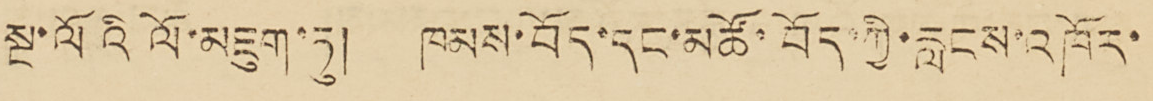སྔ་ལོའི ལོ་མཇུག་ཏུ། ཁམས་བོད་དང་མཚོ་བོད་ཀྱི་རླངས་འཁོར་
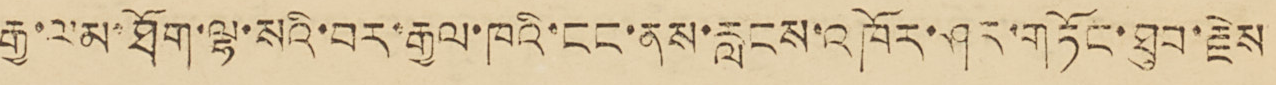རྒྱ་ལམ་ཐོག་ལྷ་སའི་བར་རྒྱལ་ཁའི་ངང་ནས་རླངས་འཁོར་ཤར་གཏོང་ཐུབ་རྗེས
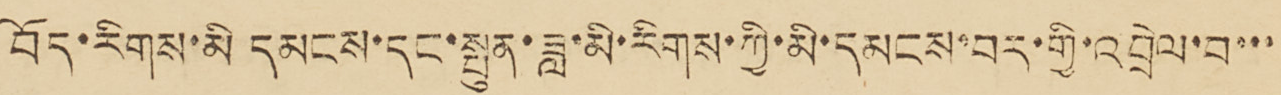བོད་རིགས་མི དམངས་དང་སྤུན་ཟླ་མི་རིགས་ཀྱི་མི་དམངས་བར་གྱི་འབྲེལ་བ་་་
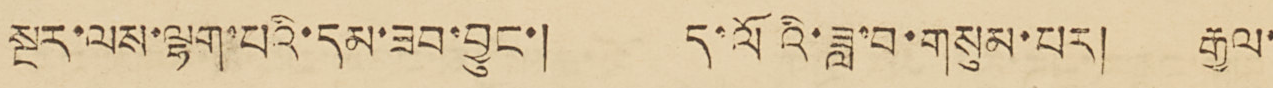སྔར་ལས་ལྷག་པའི་དམ་ཟབ་བྱུང་། ད་ལོའི་ཟླ་བ་གསུམ་པར། རྒྱལ་
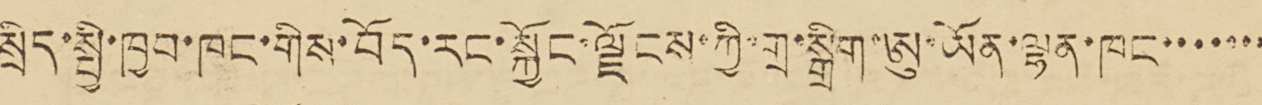སྲིད་སྤྱི་ཁྱབ་ཁང་གིས་བོད་རང་སྐྱོང་ལྗོངས་ཀྱི་གྲ་སྒྲིག་ཨུ་ཡོན་ལྷན་ཁང་་་་་་་
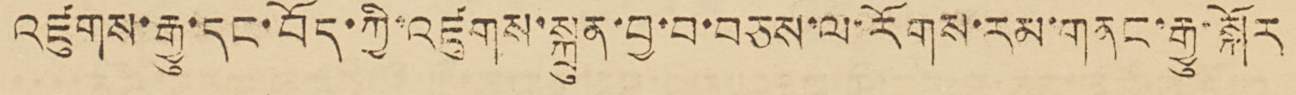འཛུགས་རྒྱུ་དང་བོད་ཀྱི་འཛུགས་སྐྲུན་བྱ་བ་བཅས་ལ་རོགས་རམ་གནང་རྒྱུ་སྐོར
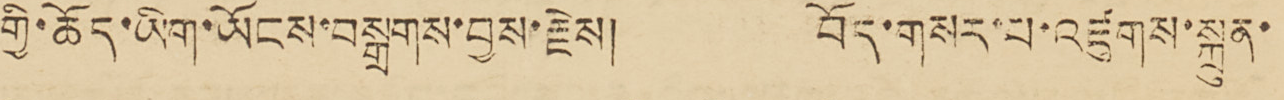གྱི་ཆོད་ཡིག་ཡོངས་བསྒྲགས་བྱས་རྗེས། བོད་གསར་པ་འཛུགས་སྐྲུན་
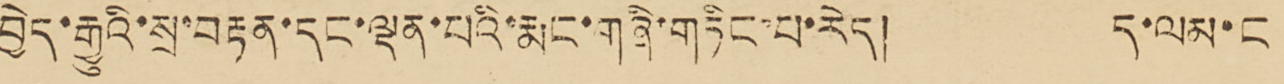བྱེད་རྒྱུའི་སྲ་བརྟན་དང་ལྡན་པའི་རྨང་གཞི་གཏིང་པ་རེད། ད་ལམ་ང
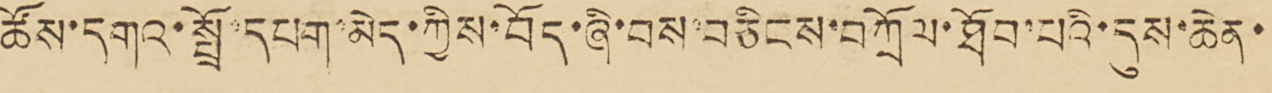ཚོས་དགའ་སྤྲོ་དཔག་མེད་ཀྱིས་བོད་ཞི་བས་བཅིངས་བཀྲོལ་ཐོབ་པའི་དུས་ཆེན་
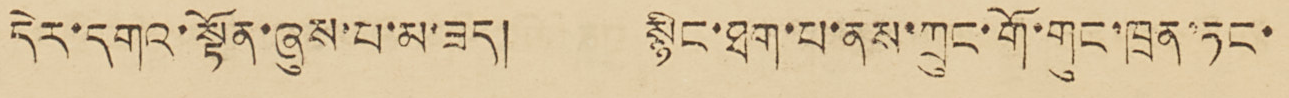དེར་དགའ་སྟོན་ཞུས་པ་མ་ཟད། སྙིང་ཐག་པ་ནས་ཀྲུང་གོ་གུང་ཁྲན་ཏང་
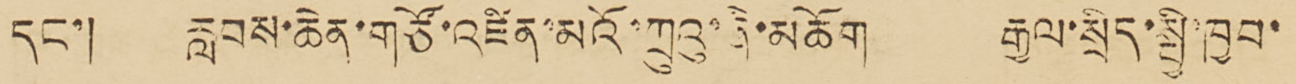དང་། རླབས་ཆེན་གཙོ་འཛིན་མའོ་ཀྲུའུ་ཞི་མཆོག རྒྱལ་སྲིད་སྤྱི་ཁྱབ་
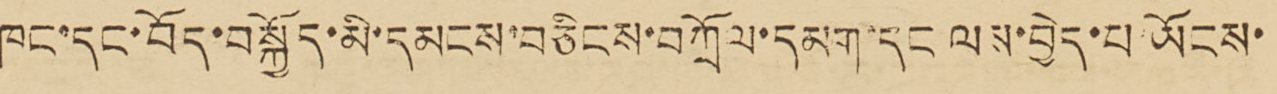ཁང་དང་བོད་བསྐྱོད་མི་དམངས་བཅིངས་བཀྲོལ་དམག་དང ལས་བྱེད་པ ཡོངས་
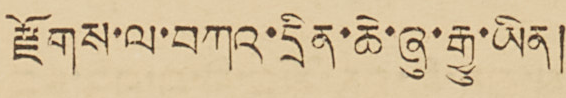རྫོགས་ལ་བཀའ་དྲིན་ཆེ་ཞུ་རྒྱུ་ཡིན།
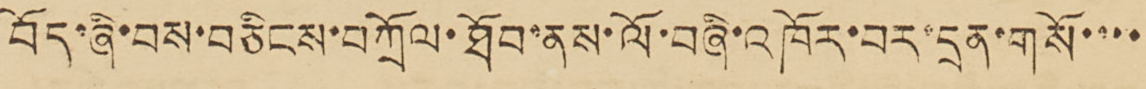བོད་ཞི་བས་བཅིངས་བཀྲོལ་ཐོབ་ནས་ལོ་བཞི་འཁོར་བར་དྲན་གསོ་་་་
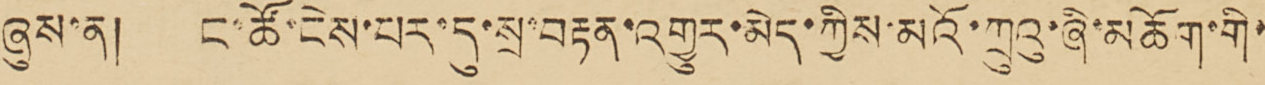ཞུས་ན། ང་ཚོ་ངེས་པར་དུ་སྲ་བརྟན་འགྱུར་མེད་ཀྱིས་མའོ་ཀྲུའུ་ཞི་མཆོག་གི་
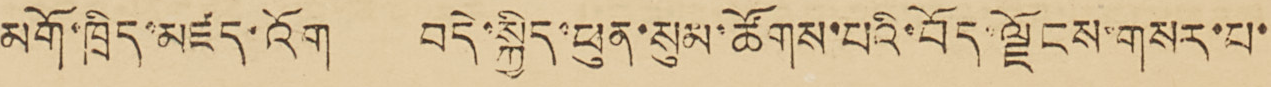མགོ་ཁྲིད་མཛད་འོག བདེ་སྐྱིད་ཕུན་སུམ་ཚོགས་པའི་བོད་ལྗོངས་གསར་པ་
